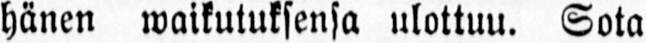hänen waikutuksensa ulottuu. Sota
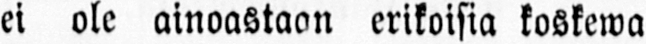ei ole ainoastaan erikoisia koskewa
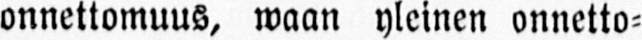onnettomuus, waan yleinen onnetto-
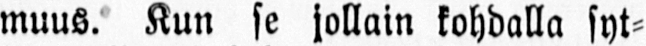muus. Kun se jollain kohdalla syt-
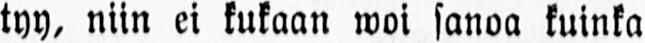tyy, niin ei kukaan woi sanoa kuinka
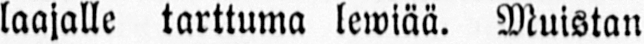laajalle tarttuma lewiää. Muistan
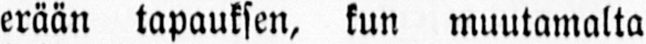erään tapauksen, kun muutamalta
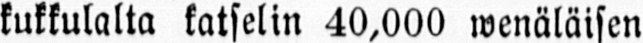kukkulalta katselin 40,000 wenäläisen
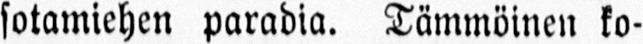sotamiehen paradia. Tämmöinen ko-
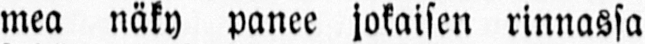mea näky panee jokaisen rinnassa
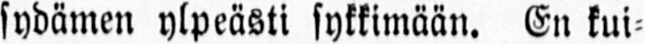sydämen ylpeästi sykkimään. En kui-
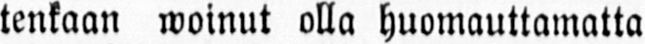tenkaan woinut olla huomauttamatta
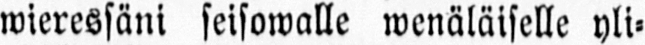wieressäni seisowalle wenäläiselle yli-
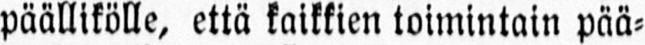päällikölle, että kaikkien toimintain pää-
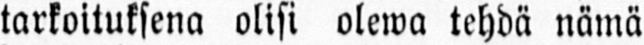tarkoituksena olisi olewa tehdä nämä
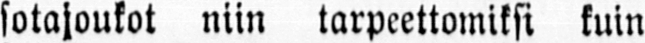sotajoukot niin tarpeettomiksi kuin
